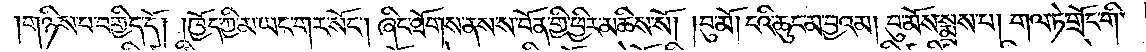གཉིས་པ་བགྱིད་དོ། །ཁྱོད་ཀྱི་མ་ཡང་གར་སོང༌། ཞིང་ཐོགས་ནས་ས་བོན་གྱི་ཕྱིར་མཆིས་སོ། །བུ་མོ། །ངའི་ཆུང་མ་བྱའམ། བུ་མོས་སྨྲས་པ། གལ་ཏེ་གྲོང་གི་
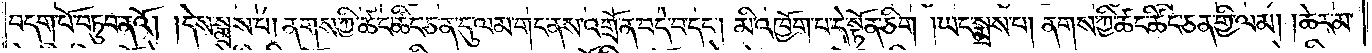བདག་པོ་བཏུབ་ནའོ། །དེས་སྨྲས་པ། ནགས་ཀྱི་ཚང་ཚིང་ཅན་དུ་ལམ་གང་ནས་འགྲོ་ན་བདེ་བ་དང༌། མི་འཁྱོག་པ་དེ་སྟོན་ཅིག །ཡང་སྨྲས་པ། ནགས་ཀྱི་ཚང་ཚིང་ཅན་གྱི་ལམ། །ཆེར་མ་
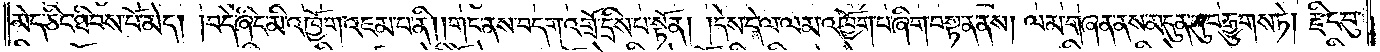མེད་ཅིང་ཐིབས་པོ་མེད། །བདེ་ཞིང་མི་འཁྱོག་འཇམ་པ་ནི། །གང་ནས་བདག་འགྲོ་དྲིས་པ་སྟོན། །དེས་དེ་ལ་ལམ་འཁྱོག་པ་ཞིག་བསྟན་ནས། ལམ་གཞན་ནས་མདུན་དུ་བརྒྱུགས་ཏེ། རྫིང་བུ་
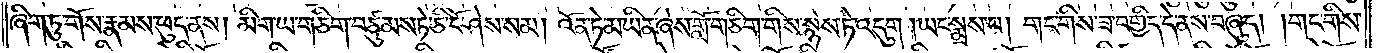ཞིག་ཏུ་གོས་རྣམས་ཕུད་ནས། མིག་ཡ་གཅིག་བཙུམས་ཏེ་ཅི་ངོ་ཤེས་སམ། འོན་ཏེ་མ་ཡིན་ཞེས་གློ་གཅིག་གིས་སྙེས་ཏེ་འདུག །ཡང་སྨྲས་པ། གང་གིས་ཟ་བགྱིད་དེ་ནས་བཞུད། །གང་གིས་
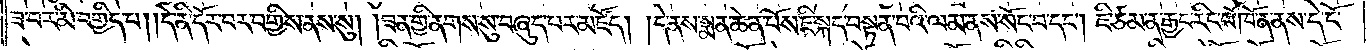ཟ་བར་མི་བགྱིད་པ། །དེ་ནི་དོར་བར་བགྱིས་ནས་སུ། །ཟན་གྱི་ནགས་སུ་བཞུད་པར་མཛོད། །དེ་ནས་སྨན་ཆེན་པོས་ཇི་སྐད་བསྟན་པའི་ལམ་ནས་སོང་བ་དང༌། ཇི་ཙམ་ན་རྒྱང་རིང་པོ་ཁོ་ན་ནས་དེ་ངོ་
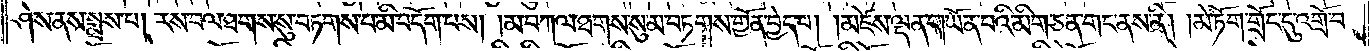ཤེས་ནས་སྨྲས་པ། རས་བལ་ཐགས་སུ་བཏགས་པ་མི་བདོག་པས། །མ་བཀལ་ཐགས་སུ་མ་བཏགས་གྱོན་བྱེད་པ། །མཛེས་ལྡན་གཡོན་པའི་མིག་ཅན་གང་ནས་ནི། །མེ་ཏོག་གྲོང་དུ་འགྲོ་བ་
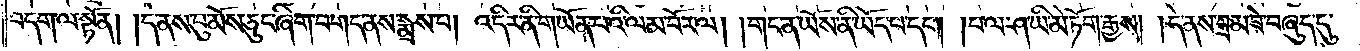བདག་ལ་སྟོན། །དེ་ནས་བུ་མོས་ཅུང་ཞིག་བགད་ནས་སྨྲས་པ། འདིར་ནི་གཡོན་པའི་ལམ་བོར་ལ། །གང་ན་ཡོས་ནི་ཡོད་པ་དང༌། །པ་ལ་ཤ་ཡི་མེ་ཏོག་རྒྱས། །དེ་ནས་བྲམ་ཟེ་བཞུད་དུ་
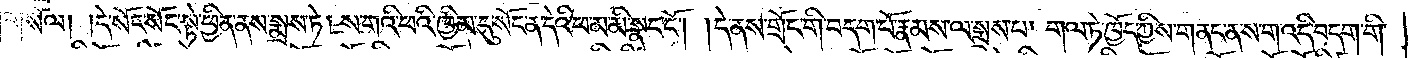གསོལ། །དེ་སོང་སོང་སྟེ་ཕྱིན་ནས་སྨྲས་ཏེ། ས་གའི་ཕའི་ཁྱིམ་དུ་སོང་ན་དེའི་ཕ་མ་མི་སྣང་ངོ༌། །དེ་ནས་གྲོང་གི་བདག་པོ་རྣམས་ལ་སྨྲས་པ། གལ་ཏེ་ཁྱོད་ཀྱིས་གནང་ན་ས་ག་འདི་བདག་གི་
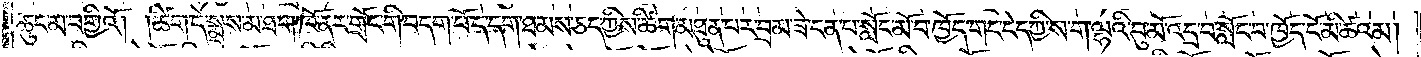ཆུང་མ་བགྱིའོ། །ཚིག་དེ་སྨྲས་མ་ཐག་ཁོ་ནར་གྲོང་གི་བདག་པོ་དེ་དག་ཐམས་ཅད་ཀྱིས་ཚིག་མཐུན་པར་བྲམ་ཟེ་ངན་པ་སློང་མོ་བ་ཁྱོད་གང་ངེད་ཀྱི་ས་ག་ལྷའི་བུ་མོ་འདྲ་བ་སློང་བ་ཁྱོད་ངོ་མི་ཚའམ།
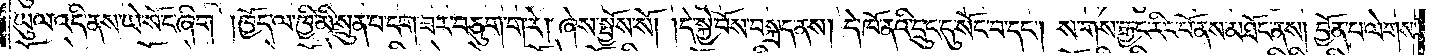ཡུལ་འདི་ནས་ཡེ་སོང་ཞིག །ཁྱོད་ལ་ཁྱི་མི་སྲུན་པ་དག་ཟར་བཅུག་ག་རེ། ཞེས་སྤྱོས་སོ། །དེ་སྐྱེ་བོས་བསྐྲད་ནས། དེ་ཁོ་ནའི་དྲུང་དུ་སོང་བ་དང༌། ས་གས་རྒྱང་རིང་པོ་ནས་མཐོང་ནས། བྱོན་པ་ལེགས་
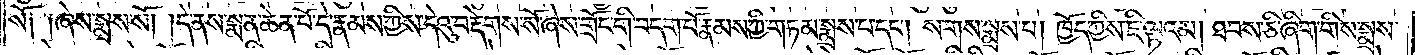སོ༑ ༑ཞེས་སྨྲས་སོ། །དེ་ནས་སྨན་ཆེན་པོ་དེ་རྣམས་ཀྱིས་དེའུ་བརྡེགས་སོ་ཞེས་གྲོང་གི་བདག་པོ་རྣམས་ཀྱི་གཏམ་སྨྲས་པ་དང༌། ས་གས་སྨྲས་པ། ཁྱོད་ཀྱིས་ཇི་ལྟའམ། ཐབས་ཅི་ཞིག་གིས་སྨྲས་
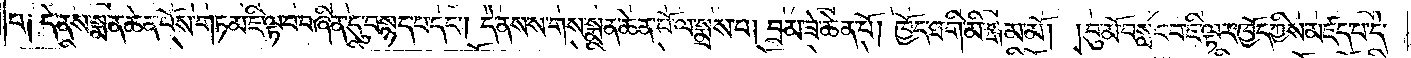པ། དེ་ནས་སྨན་ཆེན་པོས་གཏམ་ཇི་ལྟ་བ་བཞིན་དུ་བསྙད་པ་དང༌། དེ་ནས་ས་གས་སྨན་ཆེན་པོ་ལ་སྨྲས་པ། བྲམ་ཟེ་ཆེན་པོ། ཁྱོད་ཐ་གི་མི་སྒམ་མོ། །བུ་མོ་བསླང་བ་ཇི་ལྟར་ཁྱོད་ཀྱིས་མཛད་པ་དེ་
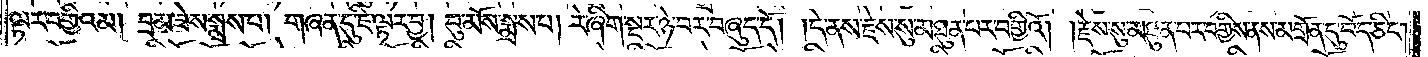ལྟར་བགྱིའམ། བྲམ་ཟེས་སྨྲས་པ། གཞན་དུ་ཇི་ལྟར་བྱ། བུ་མོས་སྨྲས་པ། རེ་ཞིག་སྔར་ཉེ་བར་བཞུད་དོ། །དེ་ནས་རྗེས་སུ་མཐུན་པར་བགྱིའོ། །རྗེས་སུ་མཐུན་པར་བགྱིས་ནས་མགྲོན་དུ་བོད་ཅིང༌།
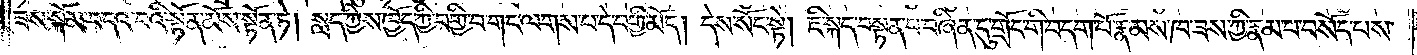ཟས་སྐོམ་བདའ་བའི་སྟོན་མོས་སྟོན་ཏེ། སླད་ཀྱིས་ཁྱོད་ཀྱི་བགྱི་བ་གང་ལགས་པ་དེ་བགྱི་མོད། །དེས་སོང་སྟེ། ཇི་སྐད་བསྟན་པ་བཞིན་དུ་གྲོང་གི་བདག་པོ་རྣམས་ཁ་ཟས་ཀྱི་རྣམ་པ་བསོད་པས་
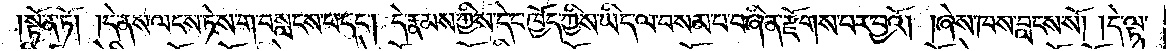སྟོན་ཏོ། །དེ་ནས་ལངས་ཏེ་ས་ག་བསླངས་པ་དང༌། དེ་རྣམས་ཀྱིས་དེང་ཁྱོད་ཀྱིས་ཡིད་ལ་བསམ་པ་བཞིན་རྫོགས་པར་བྱའོ། །ཞེས་ཁས་བླངས་སོ། །དེ་ལྟ་
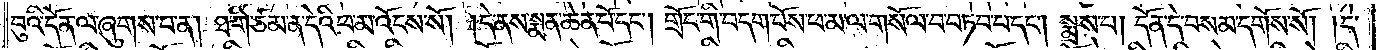བུའི་དོན་ལ་ཞུགས་པ་ན། ཐ་གི་ཙམ་ན་དེའི་ཕ་མ་འོངས་སོ། །དེ་ནས་སྨན་ཆེན་པོ་དང༌། གྲོང་གི་བདག་པོས་ཕ་མ་ལ་གསོལ་བ་བཏབ་པ་དང༌། སྨྲས་པ། དོན་དེ་བསམ་དགོས་སོ། །དེ་
